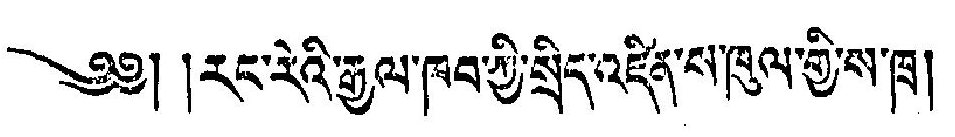༄༅། །རང་རེའི་རྒྱལ་ཁབ་ཀྱི་སྲིད་འཛིན་གཁུལ་གྱི་ས་ཁྲ།
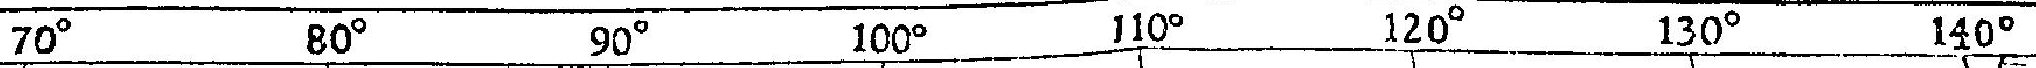70° 80° 90° 100° °110° 120° 130° 140°
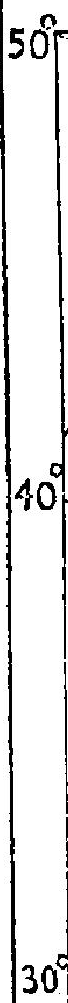50° 40° 30°
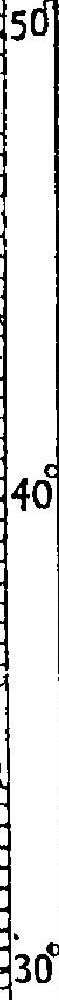50° 40° 30°
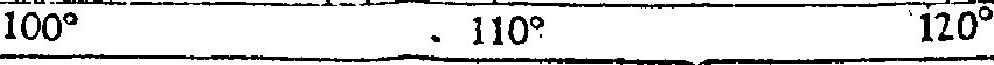100° 110° 120°
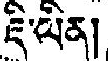ཇི་ལིན།
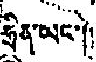ཧྲིན་ཡང་།
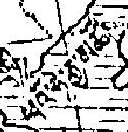ཕའོ་ཧེ་རྒྱ་མཚོ།
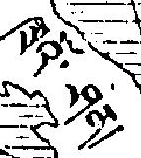ཁྲའོ་ཤན།
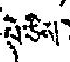པེ་ཅིན།
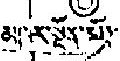མཁར་སྔོན་མོ།
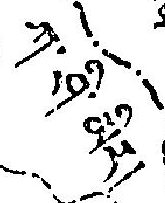ཀ་ཤི་མིར།
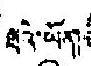ཐའེ་ཡོན།
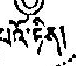པའོ་ཏིན།
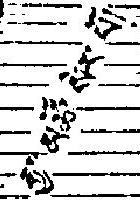རྒྱ་མཚོ་སེར་པོ།
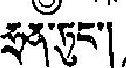ཧྲན་ཏུང་།
